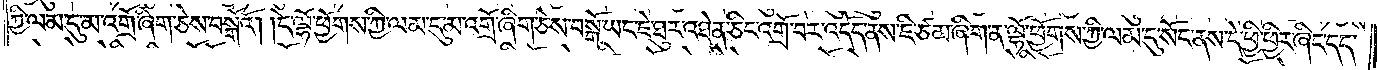ཀྱི་ལམ་དུ་མ་འགྲོ་ཞིག་ཅེས་བསྒོའོ། །དེ་ལྷོ་ཕྱོགས་ཀྱི་ལམ་དུ་མ་འགྲོ་ཞིག་ཅེས་བསྒོ་ཡང་ཇེ་ཐུར་འཐེན་ཅིང་འགྲོ་བར་འདོད་ནས་ཇི་ཙམ་ཞིག་ན་ལྷོ་ཕྱོགས་ཀྱི་ལམ་དུ་སོང་ནས་དེ་ཕྱི་ཕྱིར་ཞིང་དད་
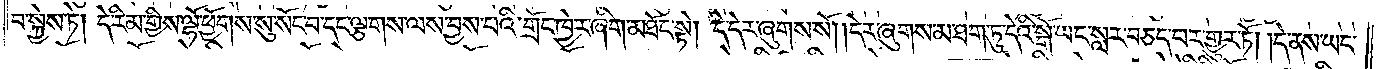པ་སྐྱེས་ཏེ། དེ་རིམ་གྱིས་ལྷོ་ཕྱོགས་སུ་སོང་བ་དང་ལྕགས་ལས་བྱས་པའི་གྲོང་ཁྱེར་ཞིག་མཐོང་སྟེ། དེ་དེར་ཞུགས་སོ། །དེར་ཞུགས་མ་ཐག་ཏུ་དེའི་སྒོ་ཡང་སླར་བཅད་པར་གྱུར་ཏོ། །དེ་ནས་ཡང་
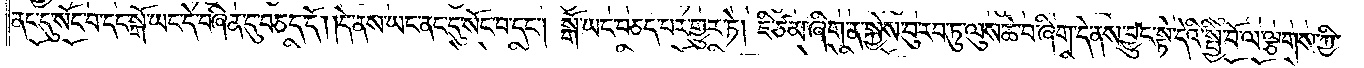ནང་དུ་སོང་བ་དང་སྒོ་ཡང་དེ་བཞིན་དུ་བཅད་དོ། །དེ་ནས་ཡང་ནང་དུ་སོང་བ་དང༌། སྒོ་ཡང་བཅད་པར་གྱུར་ཏེ། ཇི་ཙམ་ཞིག་ན་སྐྱེས་བུ་རབ་ཏུ་ལུས་ཆེ་བ་ཞིག་དེ་ནས་བྱུང་སྟེ་དེའི་སྤྱི་བོ་ལ་ལྕགས་ཀྱི་
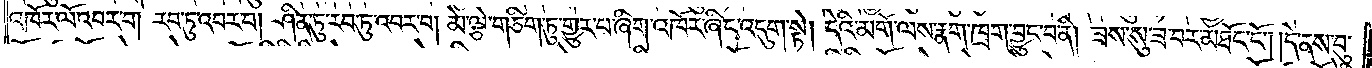འཁོར་ལོ་འབར་བ། རབ་ཏུ་འབར་བ། ཤིན་ཏུ་རབ་ཏུ་འབར་བ། མེ་ལྕེ་གཅིག་ཏུ་གྱུར་པ་ཞིག་འཁོར་ཞིང་འདུག་སྟེ། དེའི་མགོ་ལས་རྣག་ཁྲག་བྱུང་བ་ནི། ཟས་སུ་ཟ་བར་མཐོང་ངོ༌། །དེ་ནས་བུ་
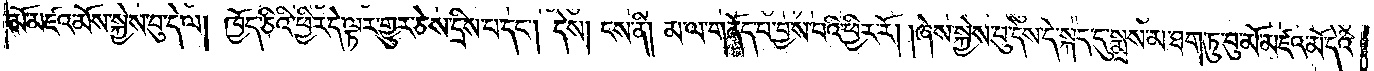མོ་མཛའ་མོས་སྐྱེས་བུ་དེ་ལ། ཁྱོད་ཅིའི་ཕྱིར་དེ་ལྟར་གྱུར་ཅེས་དྲིས་པ་དང༌། དེས། ངས་ནི། མ་ལ་གནོད་པ་བྱས་པའི་ཕྱིར་རོ། །ཞེས་སྐྱེས་བུ་དེས་དེ་སྐད་དུ་སྨྲས་མ་ཐག་ཏུ་བུ་མོ་མཛའ་མོ་དེའི་
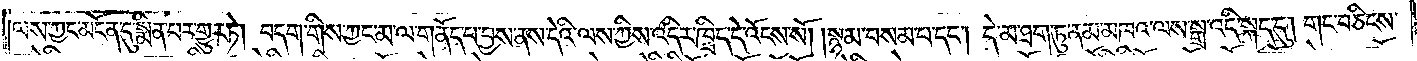ལས་ཀྱང་མངོན་དུ་སྨིན་པར་གྱུར་ཏེ། བདག་གིས་ཀྱང་མ་ལ་གནོད་པ་བྱས་ནས་དེའི་ལས་ཀྱིས་འདིར་ཁྲིད་དེ་འོངས་སོ། །སྙམ་བསམ་པ་དང༌། དེ་མ་ཐག་ཏུ་ནམ་མཁའ་ལས་སྒྲ་འདི་སྐད་དུ། གང་བཅིངས་
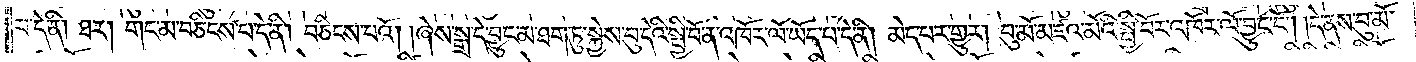པ་དེ་ནི། ཐར། གང་མ་བཅིངས་པ་དེ་ནི། བཅིངས་པའོ། །ཞེས་སྒྲ་དེ་བྱུང་མ་ཐག་ཏུ་སྐྱེས་བུ་དེའི་སྤྱི་བོ་ན་འཁོར་ལོ་ཡོད་པ་དེ་ནི། མེད་པར་གྱུར། བུ་མོ་མཛའ་མོའི་སྤྱི་བོར་འཁོར་ལོ་བྱུང་ངོ༌། །དེ་ནས་བུ་མོ་
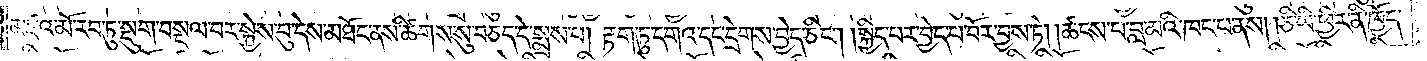མཛའ་མོ་རབ་ཏུ་སྡུག་བསྔལ་བར་སྐྱེས་བུ་དེས་མཐོང་ནས་ཚིགས་སུ་བཅད་དེ་སྨྲས་པ། རྟག་ཏུ་དགའ་དང་དྲེགས་བྱེད་ཅིང༌། །སྐྱིད་པར་བྱེད་པ་བོར་བྱས་ཏེ། །ཚངས་པ་བླ་མའི་ཁང་པ་ནས། །ཅི་ཡི་ཕྱིར་ནི་ཁྱོད་
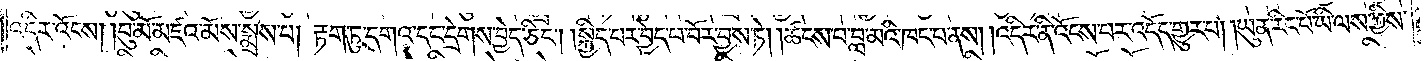འདིར་འོངས། །བུ་མོ་མཛའ་མོས་སྨྲས་པ། རྟག་ཏུ་དགའ་དང་དྲེགས་བྱེད་ཅིང༌། །སྐྱིད་པར་བྱེད་པ་བོར་བྱས་ཏེ། །ཚངས་པ་བླ་མའི་ཁང་པ་ནས། །འདིར་ནི་འོངས་པར་འདོད་གྱུར་པ། །ཡུན་རིང་པོ་ཡི་ལས་ཀྱིས་
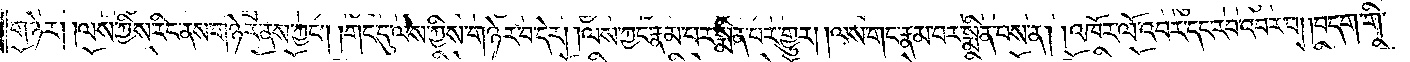གཉེར། །ལས་ཀྱིས་རིང་ནས་གཉེར་ནས་ཀྱང༌། །གང་དུ་ལས་ཀྱིས་གཉེར་བ་དེར། །ལས་ཀྱང་རྣམ་པར་སྨིན་པར་གྱུར། །ལས་གང་རྣམ་པར་སྨིན་པས་ན། །འཁོར་ལོ་འབར་དང་རབ་འབར་བ། །བདག་གི་
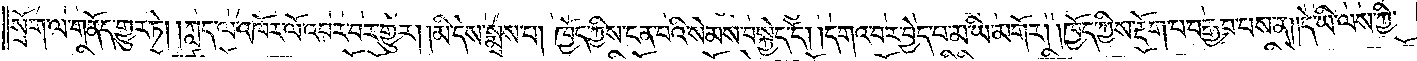སྲོག་ལ་གནོད་གྱུར་ཏེ། །ཀླད་ལ་འཁོར་ལོ་འབར་བར་གྱུར། །མི་དེས་སྨྲས་པ། ཁྱོད་ཀྱིས་ངན་པའི་སེམས་བསྐྱེད་དོ། །དགའ་བར་བྱེད་པ་མ་ཡི་མགོར། །ཁྱོད་ཀྱིས་རྡོག་པ་བརྒྱབ་པས་ན། །དེ་ཡི་ལས་ཀྱི་
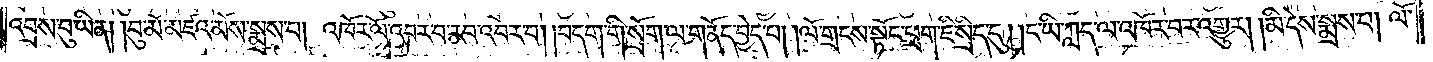འབྲས་བུ་ཡིན། །བུ་མོ་མཛའ་མོས་སྨྲས་པ། འཁོར་ལོ་འབར་བ་རབ་འབར་བ། །བདག་གི་སྲོག་ལ་སྲོག་ལ་གནོད་བྱེད་པ། །ལོ་གྲངས་སྲོང་ཕྲག་ཇི་སྲིད་དུ། །ང་ཡི་ཀླད་ལ་འཁོར་བར་འགྱུར། །མི་དེས་སྨྲས་པ། ལོ་
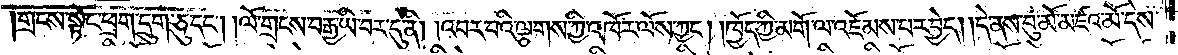གྲངས་སྟོང་ཕྲག་དྲུག་ཅུ་དང༌། །ལོ་གྲངས་བརྒྱ་ཡི་བར་དུ་ནི། །འབར་བའི་ལྕགས་ཀྱི་འཁོར་ལོས་ཀྱང༌། །ཁྱོད་ཀྱི་མགོ་ལ་འཇོམས་པར་བྱེད། །དེ་ནས་བུ་མོ་མཛའ་མོ་དེས་
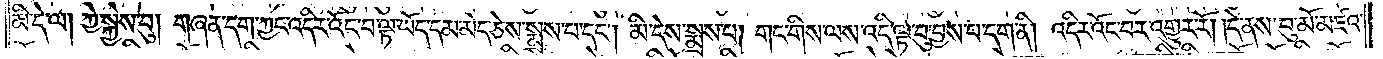མི་དེ་ལ། ཀྱེ་སྐྱེས་བུ། གཞན་དག་ཀྱང་འདིར་འོང་བ་ལྟ་ཡོད་དམ་མེད་ཅེས་སྨྲས་པ་དང༌། མི་དེས་སྨྲས་པ། གང་གིས་ལས་འདི་ལྟ་བུ་བྱས་པ་དག་ནི། འདིར་འོང་བར་འགྱུར་རོ། །དེ་ནས་བུ་མོ་མཛའ་
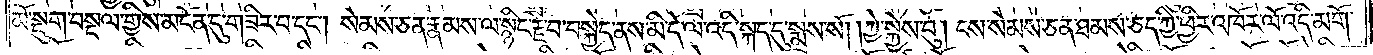མོ་སྡུག་བསྔལ་གྱིས་མངོན་དུ་གཟིར་བ་དང༌། སེམས་ཅན་རྣམས་ལ་སྙིང་རྗེ་བ་བསྐྱེད་ནས་མི་དེ་ལ་འདི་སྐད་དུ་སྨྲས་སོ། །ཀྱེ་སྐྱེས་བུ། ངས་སེམས་ཅན་ཐམས་ཅད་ཀྱི་ཕྱིར་འཁོར་ལོ་འདི་མགོ་
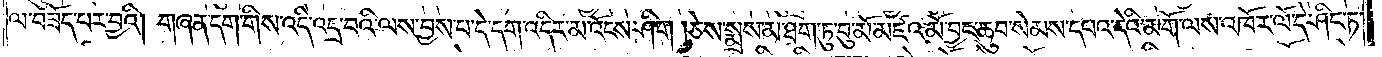ལ་བཟོད་པར་བྱའི། །གཞན་དག་གིས་འདི་འདྲ་བའི་ལས་བྱས་པ་དེ་དག་འདིར་མ་འོངས་ཤིག །ཅེས་སྨྲས་མ་ཐག་ཏུ་བུ་མོ་མཛའ་མོ་བྱང་ཆུབ་སེམས་དཔའ་དེའི་མགོ་ལས་འཁོར་ལོ་དེ་ཤིང་ཏ་
